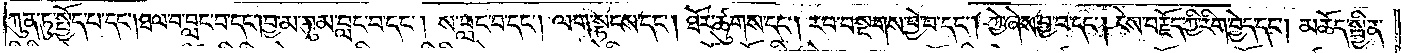ཀུན་ཏུ་སྤྱོད་པ་དང༌། ཐལ་བ་བླང་བ་དང༌། བྱ་མ་བུམ་བླང་བ་དང༌། ས་བླང་བ་དང༌། ལག་སྟངས་དང༌། ཐོར་ཚུགས་དང༌། རབ་བསྔགས་བྱེ་བ་དང༌། ཀྱེ་ཞེས་བྱ་བ་དང༌། ངེས་བརྗོད་ཀྱི་རིག་བྱེད་དང༌། མཆོད་སྦྱིན་
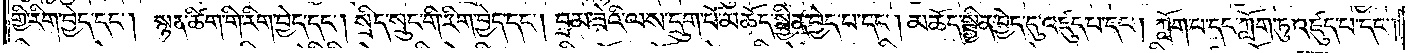གྱི་རིག་བྱེད་དང༌། སྙན་ཚིག་གི་རིག་བྱེད་དང༌། སྲིད་སྲུང་གི་རིག་བྱེད་དང༌། བྲམ་ཟེའི་ལས་དྲུག་པོ་མཆོད་སྦྱིན་བྱེད་པ་དང༌། མཆོད་སྦྱིན་བྱེད་དུ་འཛུད་པ་དང༌། ཀློག་པ་དང་ཀློག་ཏུ་འཛུད་པ་དང༌།
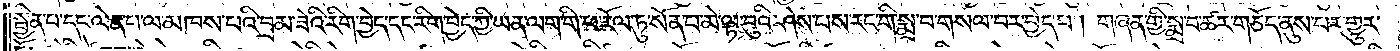སྦྱིན་པ་དང་ལེན་པ་ལ་མཁས་པའི་བྲམ་ཟེའི་རིག་བྱེད་དང་རིག་བྱེད་ཀྱི་ཡན་ལག་གི་ཕ་རོལ་ཏུ་སོན་པ་མེ་ལྟ་བུའི་ཤེས་པས་རང་གི་སྨྲ་བ་གསལ་བར་བྱེད་པ། གཞན་གྱི་སྨྲ་བ་ཚར་གཅོད་ནུས་པར་གྱུར་
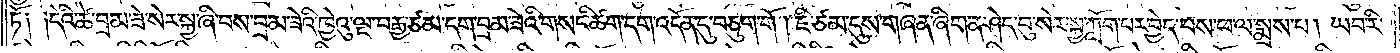ཏོ༑ ༑དེའི་ཚེ་བྲམ་ཟེ་སེར་སྐྱ་ཞི་བས་བྲམ་ཟེའི་ཁྱེའུ་ལྔ་བརྒྱ་ཙམ་དག་བྲམ་ཟེའི་གསང་ཚིག་དག་འདོན་དུ་བཅུག་གོ །ཇི་ཙམ་དུས་གཞན་ཞིག་ན་ཤེད་བུ་སེར་སྐྱ་ཀློག་པར་བྱེད་པས་ཕ་ལ་སྨྲས་པ། ཡབ་རི་
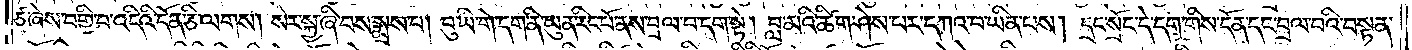ཙ་ཞེས་བགྱི་བ་འདིའི་དོན་ཅི་ལགས། སེར་སྐྱ་ཞི་བས་སྨྲས་པ། བུ་ཡི་གེ་དག་ནི་ཡུན་རིང་པོ་ནས་བྲལ་བ་དག་སྟེ། བླ་མའི་ཚིག་ཤེས་པར་དཀའ་བ་ཡིན་པས། དྲང་སྲོང་དེ་དག་གིས་དོན་དང་བྲལ་བའི་བསྟན་
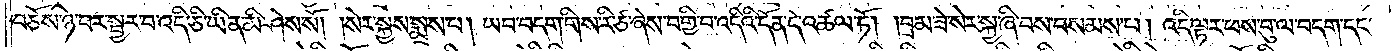བཅོས་ཉེ་བར་སྦྱར་བ་འདི་ཅི་ཡིན་མི་ཤེས་སོ། །སེར་སྐྱས་སྨྲས་པ། ཡབ་བདག་གིས་རི་ཙ་ཞེས་བགྱི་བ་འདིའི་དོན་དེ་འཚལ་ཏོ། །བྲམ་ཟེ་སེར་སྐྱ་ཞི་བས་བསམས་པ། འདི་ལྟར་ཕས་བུ་ལ་བདག་དང་
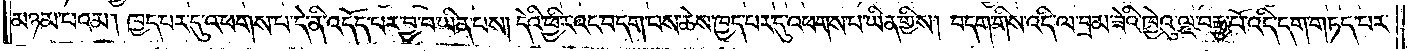མཉམ་པའམ། ཁྱད་པར་དུ་འཕགས་པ་དེ་ནི་འདོད་པར་བྱ་བ་ཡིན་པས། དེའི་ཕྱིར་འང་བདག་པས་ཆེས་ཁྱད་པར་དུ་འཕགས་པ་ཡིན་གྱིས། བདག་གིས་འདི་ལ་བྲམ་ཟེའི་ཁྱེའུ་ལྔ་བརྒྱ་པོ་འདི་དག་གཏད་པར་
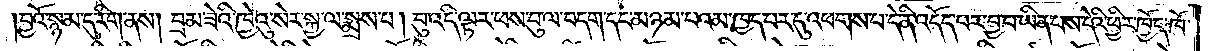བྱའོ་སྙམ་དུ་རིག་ནས། བྲམ་ཟེའི་ཁྱེའུ་སེར་སྐྱ་ལ་སྨྲས་པ། བུ་འདི་ལྟར་ཕས་བུ་ལ་བདག་དང་མཉམ་པའམ་ཁྱད་པར་དུ་འཕགས་པ་དེ་ནི་འདོད་པར་བྱ་བ་ཡིན་པས་དེའི་ཕྱིར་ཁྱོད་ཁོ་
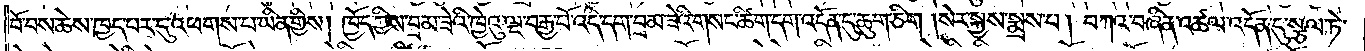བོ་བས་ཆེས་ཁྱད་པར་དུ་འཕགས་པ་ཡིན་གྱིས། ཁྱོད་ཀྱིས་བྲམ་ཟེའི་ཁྱེའུ་ལྔ་བརྒྱ་པོ་འདི་དག་བྲམ་ཟེའི་གསང་ཚིག་དག་འདོན་དུ་ཆུག་ཅིག །སེར་སྐྱས་སྨྲས་པ། བཀའ་བཞིན་འཚལ་འདོན་དུ་སྩལ་ཏེ་
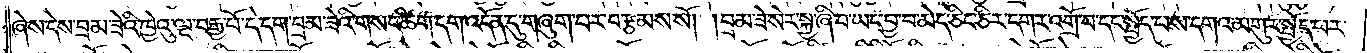ཞེས་དེས་བྲམ་ཟེའི་ཁྱེའུ་ལྔ་བརྒྱ་པོ་དེ་དག་བྲམ་ཟེའི་གསང་ཚིག་དག་འདོན་དུ་གཞུག་པར་བརྩམས་སོ། །བྲམ་ཟེ་སེར་སྐྱ་ཞི་བ་ཡང་བྱ་བ་མེད་ཅིང་ཅིར་དགར་འགྲོ་བ་དང་སྤྱོད་པས་དགའ་མགུར་སྤྱོད་པར་
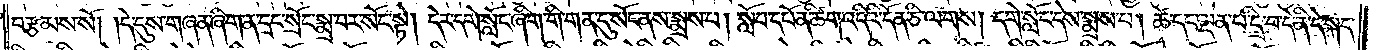བརྩམས་སོ། །དེ་དུས་གཞན་ཞིག་ན་དྲང་སྲོང་སྨྲ་བར་སོང་སྟེ། དེར་དགེ་སློང་ཞིག་གི་གན་དུ་སོང་ནས་སྨྲས་པ། སློབ་དཔོན་ཚིག་འདིའི་དོན་ཅི་ལགས། དགེ་སློང་དེས་སྨྲས་པ། ཚེ་དང་ལྡན་པ་དྲི་བ་དེ་ནི་དེ་སྐད་
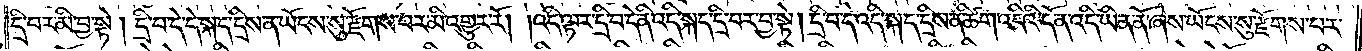དྲི་བར་མི་བྱ་སྟེ། དྲི་བ་དེ་དེ་སྐད་དྲིས་ན་ཡོངས་སུ་རྫོགས་པར་མི་འགྱུར་རོ། །འདི་ལྟར་དྲི་བ་དེ་ནི་འདི་སྐད་དྲི་བར་བྱ་སྟེ། དྲི་བ་དེ་འདི་སྐད་དྲིས་ན་ཚིག་འདིའི་དོན་འདི་ཡིན་ནོ་ཞེས་ཡོངས་སུ་རྫོགས་པར་
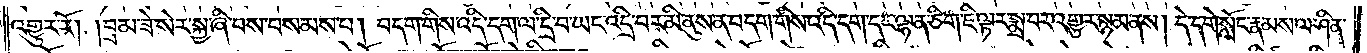འགྱུར་རོ། །བྲམ་ཟེ་སེར་སྐྱ་ཞི་བས་བསམས་པ། བདག་གིས་འདི་དག་ལ་དྲི་བ་ཡང་འདྲི་བར་མི་ནུས་ན་བདག་གིས་འདི་དག་དང་ལྷན་ཅིག་ཇི་ལྟར་སྨྲ་བར་འགྱུར་སྙམ་ནས། དེ་དགེ་སློང་རྣམས་ལ་ཤིན་
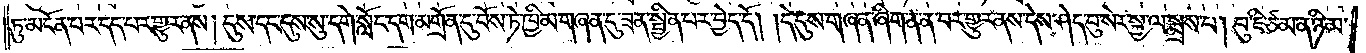ཏུ་མངོན་པར་དད་པར་གྱུར་ནས། དུས་དང་དུས་སུ་དགེ་སློང་དག་མགྲོན་དུ་བོས་ཏེ་ཁྱིམ་གཞན་དུ་ཟན་སྦྱིན་པར་བྱེད་དོ། །དེ་དུས་གཞན་ཞིག་ན་ན་བར་གྱུར་ནས་དེས་ཤེད་བུ་སེར་སྐྱ་ལ་སྨྲས་པ། བུ་ཇི་ཙམ་ན་ཉི་མ་
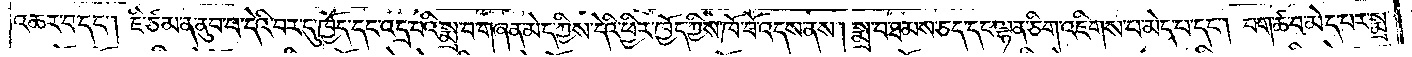འཆར་བ་དང༌། ཇི་ཙམ་ན་ནུབ་པ་དེའི་བར་དུ་ཁྱོད་དང་འདྲ་བའི་སྨྲ་བ་གཞན་མེད་ཀྱིས་དེའི་ཕྱིར་ཁྱོད་ཀྱིས་ཁོ་བོ་འདས་ནས། སྨྲ་བ་ཐམས་ཅད་དང་ལྷན་ཅིག་འཇིགས་པ་མེད་པ་དང༌། བག་ཚ་བ་མེད་པར་སྨྲ་
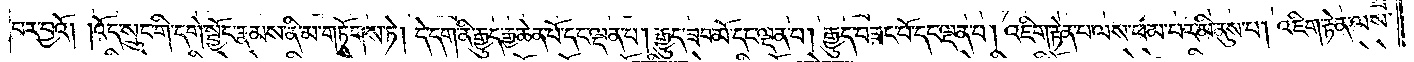བར་བྱའོ། །འོད་སྲུང་གི་དགེ་སྦྱོང་རྣམས་ནི་མ་གཏོགས་ཏེ། དེ་དག་ནི་རྒྱུད་རྒྱ་ཆེན་པོ་དང་ལྡན་པ། རྒྱུད་ཟབ་མོ་དང་ལྡན་པ། རྒྱུད་བཟང་པོ་དང་ལྡན་པ། འཇིག་རྟེན་པ་ལས་ཕམ་པར་མི་ནུས་པ། འཇིག་རྟེན་ལས་
